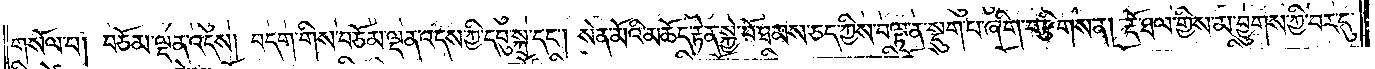གསོལ་པ། བཅོམ་ལྡན་འདས། བདག་གིས་བཅོམ་ལྡན་འདས་ཀྱི་དབུ་སྐྲ་དང༌། སེན་མོའི་མཆོད་རྟེན་སྐྱེ་བོ་ཐམས་ཅད་ཀྱིས་བལྟ་ན་སྡུག་པ་ཞིག་བརྩིགས་ན། རྡོ་ཐལ་གྱིས་མ་བྱུགས་ཀྱི་བར་དུ་
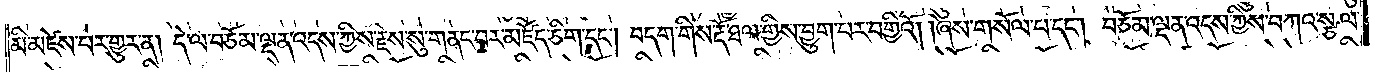མི་མཛེས་པར་གྱུར་ན། དེ་ལ་བཅོམ་ལྡན་འདས་ཀྱིས་རྗེས་སུ་གནང་བར་མཛོད་ཅིག་དང༌། བདག་གིས་རྡོ་ཐལ་གྱིས་བྱུག་པར་བགྱིའོ། །ཞེས་གསོལ་པ་དང༌། བཅོམ་ལྡན་འདས་ཀྱིས་བཀའ་སྩལ་
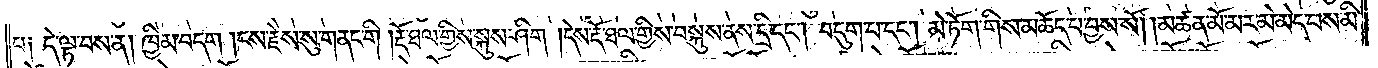པ། དེ་ལྟ་བས་ན། ཁྱིམ་བདག །ངས་རྗེས་སུ་གནང་གི །རྡོ་ཐལ་གྱིས་སྐུས་ཤིག །དེས་རྡོ་ཐལ་གྱིས་བསྐུས་ནས་དྲི་དང༌། བདུག་པ་དང༌། མེ་ཏོག་གིས་མཆོད་པ་བྱས་སོ། །མཚན་མོ་མར་མེ་མེད་པས་མི་
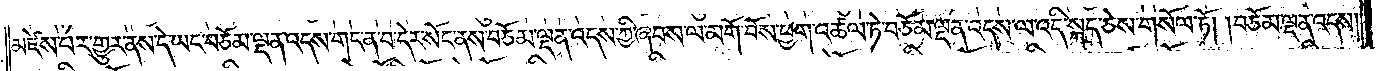མཛེས་པར་གྱུར་ནས་དེ་ཡང་བཅོམ་ལྡན་འདས་གང་ན་བ་དེར་སོང་ནས་བཅོམ་ལྡན་འདས་ཀྱི་ཞབས་ལ་མགོ་བོས་ཕྱག་འཚལ་ཏེ་བཅོམ་ལྡན་འདས་ལ་འདི་སྐད་ཅེས་གསོལ་ཏོ། །བཅོམ་ལྡན་འདས།
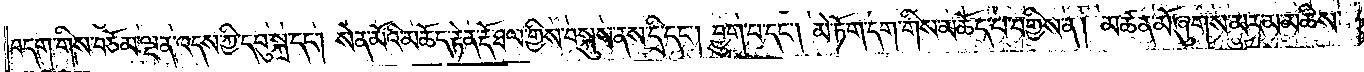བདག་གིས་བཅོམ་ལྡན་འདས་ཀྱི་དབུ་སྐྲ་དང༌། སེན་མོའི་མཆོད་རྟེན་རྡོ་ཐལ་གྱིས་བསྐུས་ནས་དྲི་དང༌། བྱུག་པ་དང༌། མེ་ཏོག་དག་གིས་མཆོད་པ་བགྱིས་ན། མཚན་མོ་ཞུགས་མར་མ་མཆིས་
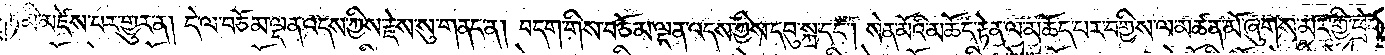ཏེ་མི་མཛེས་པར་གྱུར་ན། དེ་ལ་བཅོམ་ལྡན་འདས་ཀྱིས་རྗེས་སུ་གནང་ན། བདག་གིས་བཅོམ་ལྡན་འདས་ཀྱིས་དབུ་སྐྲ་དང༌། སེན་མོའི་མཆོད་རྟེན་ལ་མཆོད་པར་བགྱིས་ལ་མཚན་མོ་ཞུགས་མར་གྱི་ཕྲེང་
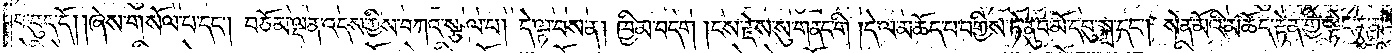བ་བུད་དོ། །ཞེས་གསོལ་པ་དང༌། བཅོམ་ལྡན་འདས་ཀྱིས་བཀའ་སྩལ་པ། དེ་ལྟ་བས་ན། ཁྱིམ་བདག །ངས་རྗེས་སུ་གནང་གི །དེ་ལ་མཆོད་པ་བགྱིས་ཏེ་ནུབ་མོ་དབུ་སྐྲ་དང༌། སེན་མོའི་མཆོད་རྟེན་གྱི་སྟེང་དུ་མར་
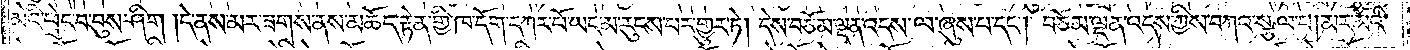མེའི་ཕྲེང་བ་བུས་ཤིག །དེ་ནས་མར་ཟགས་ནས་མཆོད་རྟེན་གྱི་ཁ་དོག་དཀར་པོ་ཡང་མ་རུངས་པར་གྱུར་ཏེ། དེས་བཅོམ་ལྡན་འདས་ལ་ཞུས་པ་དང༌། བཅོམ་ལྡན་འདས་ཀྱིས་བཀའ་སྩལ་པ། མར་མེའི་
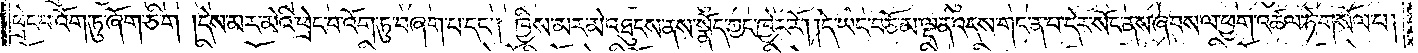ཕྲེང་བ་འོག་ཏུ་ཞོག་ཅིག །དེས་མར་མེའི་ཕྲེང་བ་འོག་ཏུ་བཞག་པ་དང༌། ཁྱིས་མར་མེ་འཐུངས་ནས་སྣོད་ཀྱང་ཁྱེར་རོ། །དེ་ཡང་བཅོམ་ལྡན་འདས་གང་ན་བ་དེར་སོང་ནས་ཞབས་ལ་ཕྱག་འཚལ་ཏེ་གསོལ་པ།
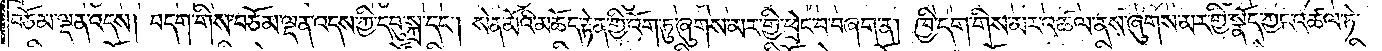བཅོམ་ལྡན་འདས། བདག་གིས་བཅོམ་ལྡན་འདས་ཀྱི་དབུ་སྐྲ་དང༌། སེན་མོའི་མཆོད་རྟེན་གྱི་འོག་ཏུ་ཞུགས་མར་གྱི་ཕྲེང་བ་བཞག་ན། ཁྱི་དག་གིས་མར་འཚལ་ནས་ཞུགས་མར་གྱི་སྣོད་ཀྱང་འཚལ་ཏེ་
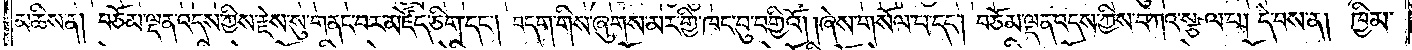མཆིས་ན། བཅོམ་ལྡན་འདས་ཀྱིས་རྗེས་སུ་གནང་བར་མཛོད་ཅིག་དང༌། བདག་གིས་ཞུགས་མར་གྱི་ཁང་བུ་བགྱིའོ། །ཞེས་གསོལ་པ་དང༌། བཅོམ་ལྡན་འདས་ཀྱིས་བཀའ་སྩལ་པ། དེ་བས་ན། ཁྱིམ་
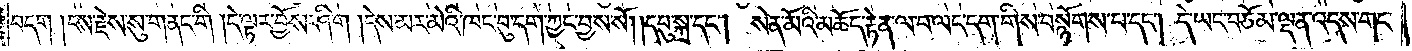བདག །ངས་རྗེས་སུ་གནང་གི །དེ་ལྟར་བྱོས་ཤིག །དེས་མར་མེའི་ཁང་བུ་དག་ཀྱང་བྱས་སོ། །དབུ་སྐྲ་དང༌། སེན་མོའི་མཆོད་རྟེན་ལ་བ་ལང་དག་གིས་བསྙོགས་པ་དང༌། དེ་ཡང་བཅོམ་ལྡན་འདས་གང་
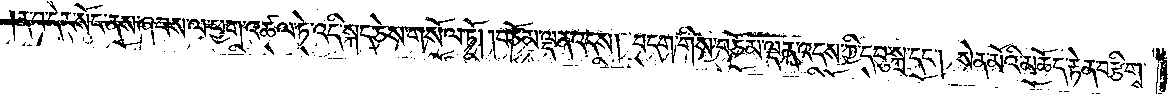ན་བ་དེར་སོང་ནས་ཞབས་ལ་ཕྱག་འཚལ་ཏེ་འདི་སྐད་ཅེས་གསོལ་ཏོ། །བཅོམ་ལྡན་འདས། བདག་གིས་བཅོམ་ལྡན་འདས་ཀྱི་དབུ་སྐྲ་དང༌། སེན་མོའི་མཆོད་རྟེན་བརྩིགས་
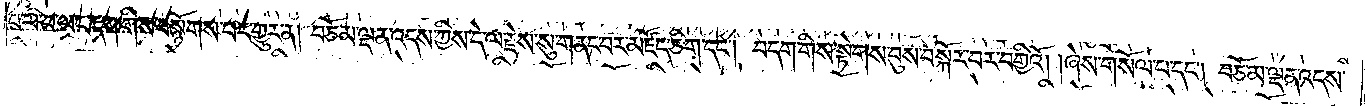པ་ལ་བ་ལང་དག་གིས་བསྙོགས་པར་གྱུར་ན། བཅོམ་ལྡན་འདས་ཀྱིས་དེ་ལ་རྗེས་སུ་གནང་བར་མཛོད་ཅིག་དང༌། བདག་གིས་སྟེགས་བུས་བསྐོར་བར་བགྱིའོ། །ཞེས་གསོལ་པ་དང༌། བཅོམ་ལྡན་འདས་
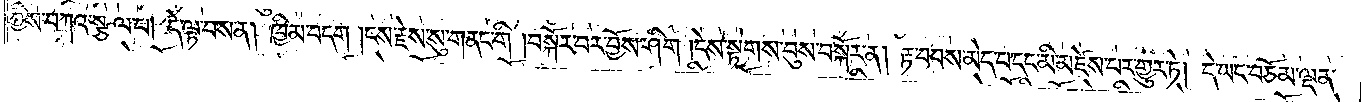ཀྱིས་བཀའ་སྩལ་པ། དེ་ལྟ་བས་ན། ཁྱིམ་བདག །ངས་རྗེས་སུ་གནང་གི། བསྐོར་བར་བྱོས་ཤིག །དེས་སྟེགས་བུས་བསྐོར་ན། རྟ་བབས་མེད་པ་དང་མི་མཇེས་པར་གྱུར་ཏེ། དེ་ཡང་བཅོམ་ལྡན་
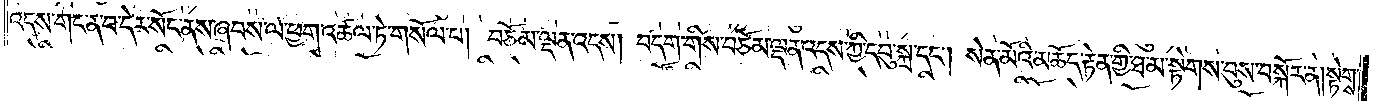འདས་གང་ན་བ་དེར་སོང་ནས་ཞབས་ལ་ཕྱག་འཚལ་ཏེ་གསོལ་པ། བཅོམ་ལྡན་འདས། བདག་གིས་བཅོམ་ལྡན་འདས་ཀྱི་དབུ་སྐྲ་དང༌། སེན་མོའི་མཆོད་རྟེན་གྱི་ཐ་མ་སྟེགས་བུས་བསྐོར་ན། སྟེགས་
